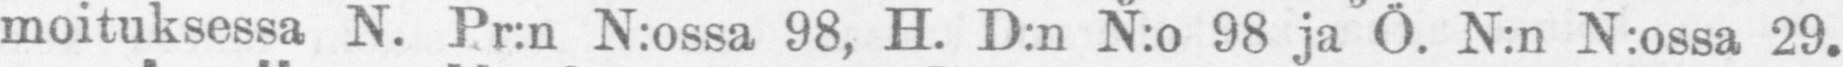moituksessa N. Pr:n N:ossa 98, H. D:n N:o 98 ja Ö. N:n N:ossa 29.
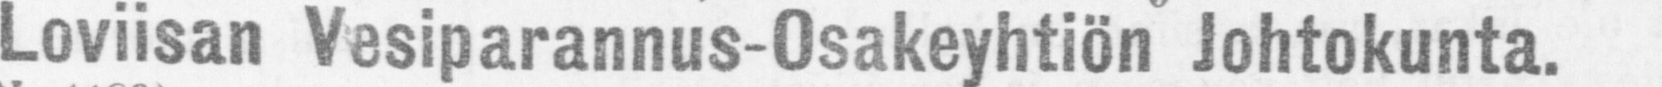Loviisan Vesiparannus-0sakeyhtiön Johtokunta.
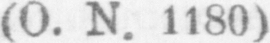(Ö. N. 1180)
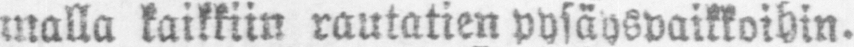Junalla kaikkiin rautatien pysäyspaikkoihin.
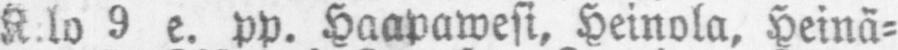K:lo 9 e. pp. Haapawesi, Heinola, Heinä-
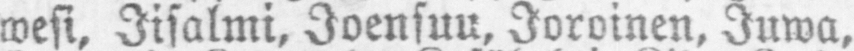wesi, Iisalmi, Joensuu, Joroinen, Juwa,
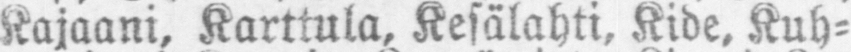Kajaani, Karttula, Kesälahti, Kide. Kuh-
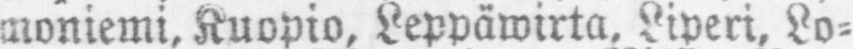moniemi, Kuopio, Leppöwirta. Liperi, Lo-
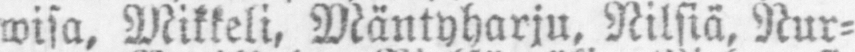wisa. Mikkeli, Mäntyharju, Nilsiä. Nur-
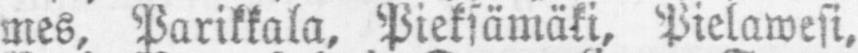mes, Parikkala, Pieksämäki, Pielawesi.
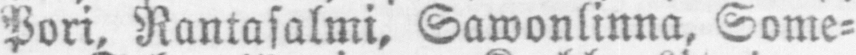Pori, Rantasalmi, Sawonlinna, Some-
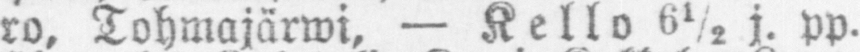ro. Tohmajärwi, — Kello 6½ j. pp.
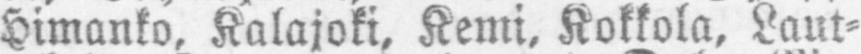Himanko. Kalajoki. Kemi. Kokkola. Laut-
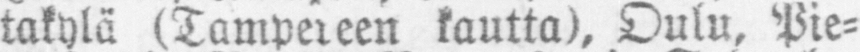takylä (Tampereen kautta), Oulu, Pie-
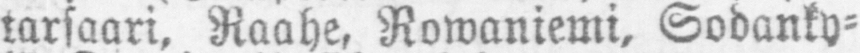tarsaari. Raahe, Rowaniemi, Sodanky-
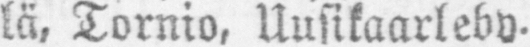lä, Tornio, Uusikaarleby.
